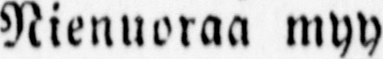Nienuoraa myy
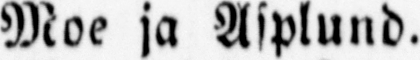Moe ja Asplund.
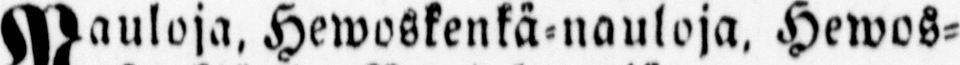Nauloja, Hewoskenkä-nauloja, Hewos-
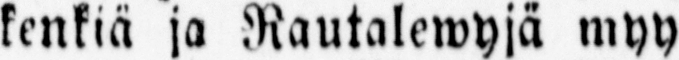kenkiä ja Rautalewyjä myy
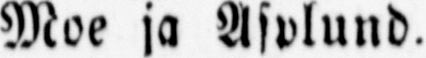Moe ja Asplund.
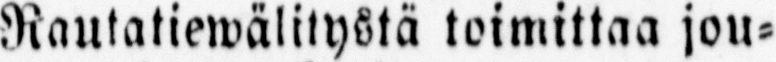Rautatiewälitystä toimittaa jou-
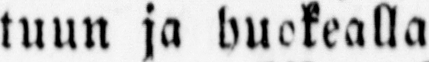tuun ja huokealla
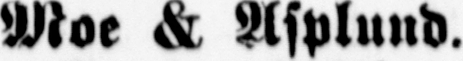Moe & Asplund.
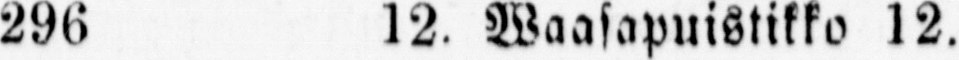296 12. Waasapuistikko 12.
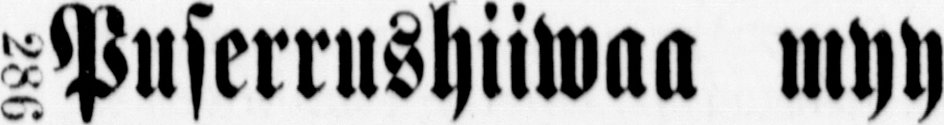286 Puserrushiiwaa myy
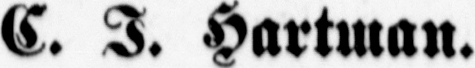C. J. Hartman.
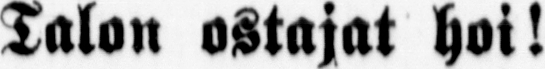Talon ostajat hoi!
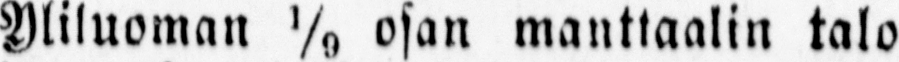Yliluoman 1/9 osan manttaalin talo
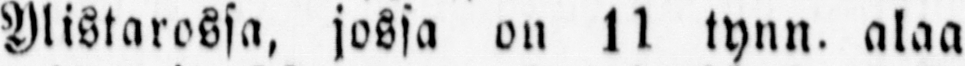Ylistarossa, jossa on 11 tynn. alaa
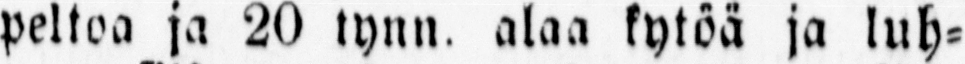peltoa ja 20 tynn. alaa kytöä ja luh-
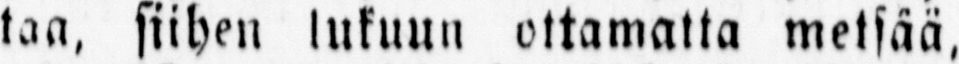taa, siihen lukuun ottamatta metsää,
